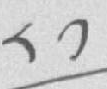༨༡
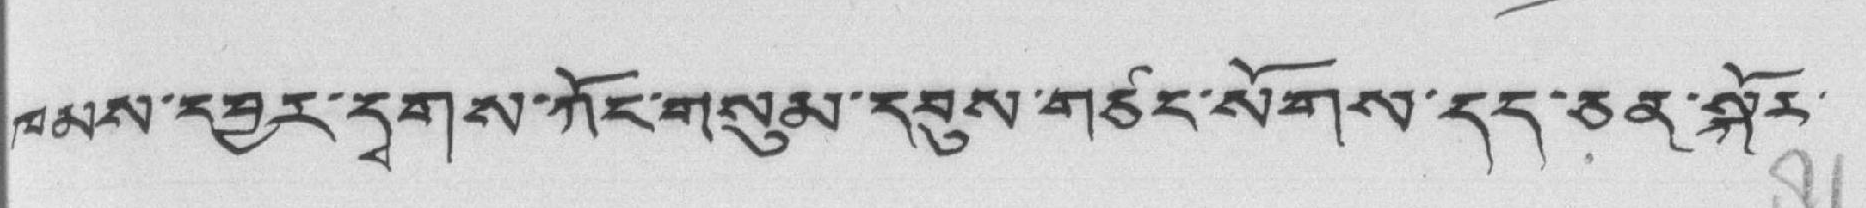ཁམས་དབྱར་དྭགས་ཀོང་གསུམ་དབུས་གཙང་སོགས་དད་ཅན་སྐོར་
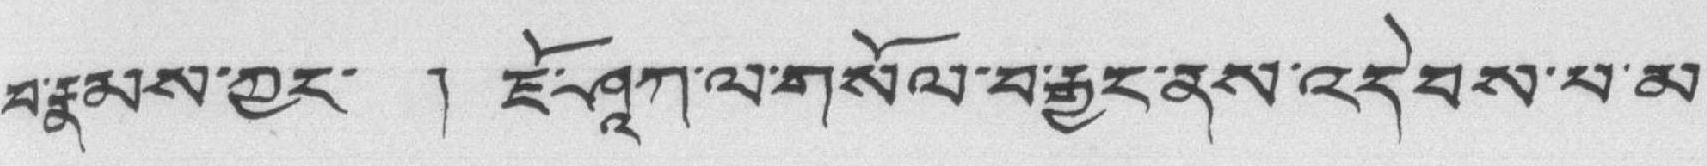བ་རྣམས་ཀྱང་ ། ཇོ་ཤཱཀ་ལ་གསོལ་བ་རྒྱང་ནས་འདེབས་པ་མ་
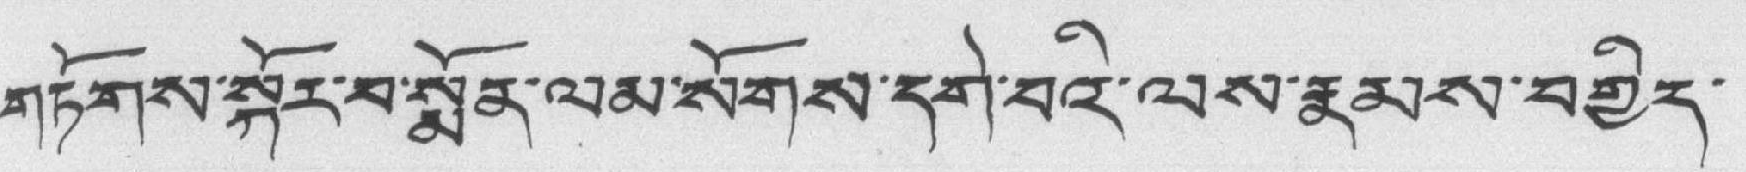གཏོགས་སྐོར་བ་སྨོན་ལམ་སོགས་དགེ་བའི་ལས་རྣམས་བགྱིད་
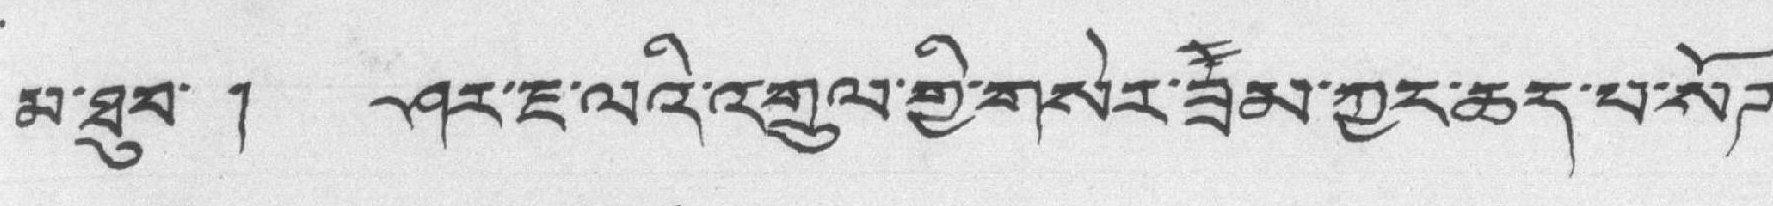མ་ཐུབ་ ། ཤར་ཇ་ལའི་འགྲུལ་གྱི་གསར་ཟེཟམ་ཀྱང་ཆད་པ་སོཊ་
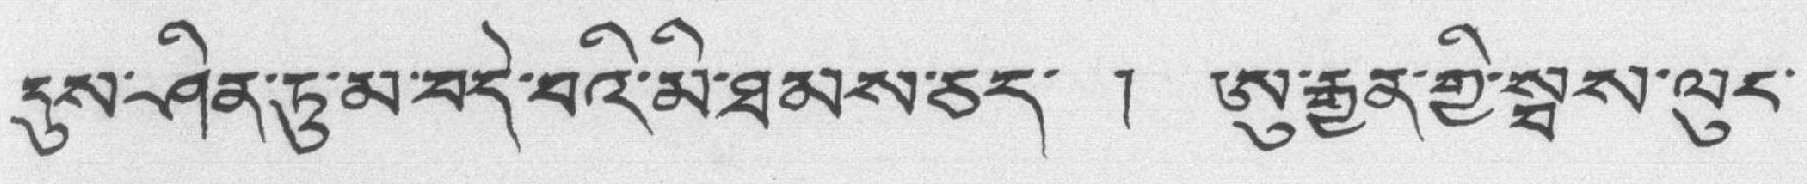དུས་ཤིན་ཏུ་མ་བདེ་བའི་མི་ཐམས་ཅེད་ ། ཨུ་རྒྱན་གྱི་སྦས་ལུང་
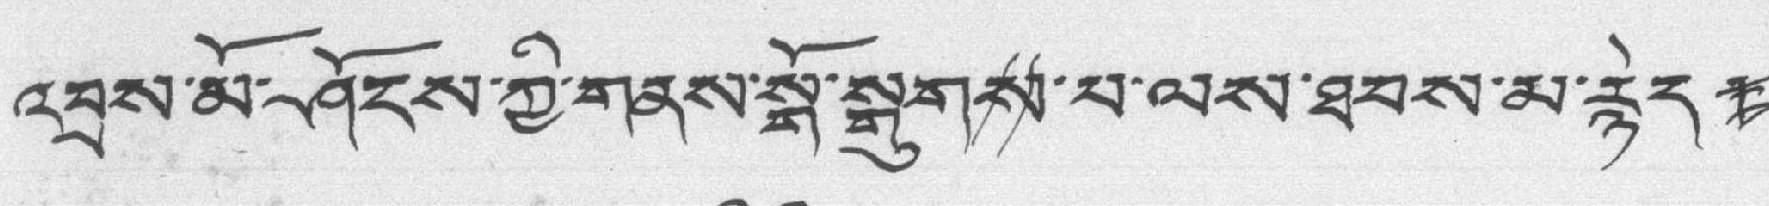འབྲས་མོ་ཤོངས་ཀྱི་གནས་སྒོ་སྒུགས་པ་ལས་ཐབས་མ་རྙེད་ །
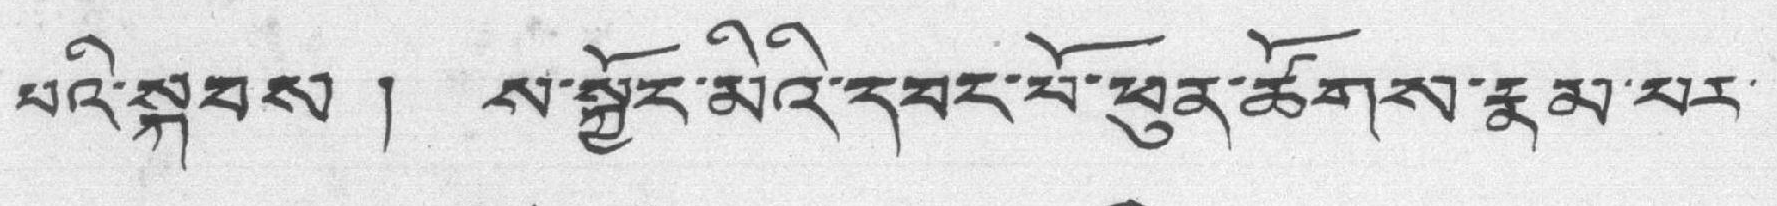པའི་སྐབས ། ས་སྐྱོང་མིའི་དབང་པོ་ཕུན་ཚོགས་རྣམ་པར་
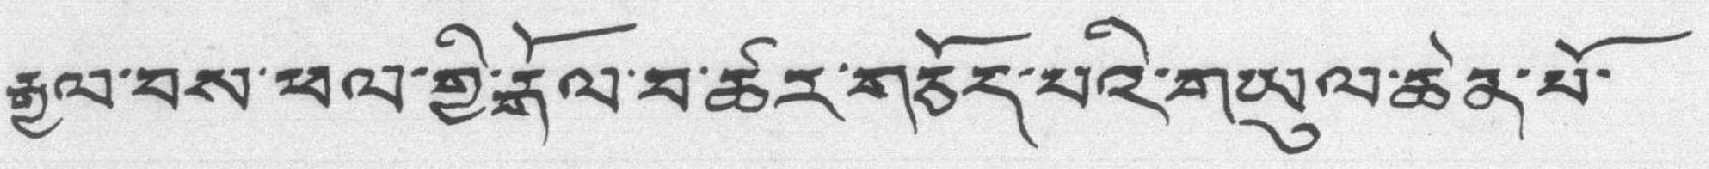རྒྱལ་བས་ཕལ་གྱི་རྒོལ་བ་ཚར་གཅོད་པའི་གཡུལ་ཆེན་པོ་
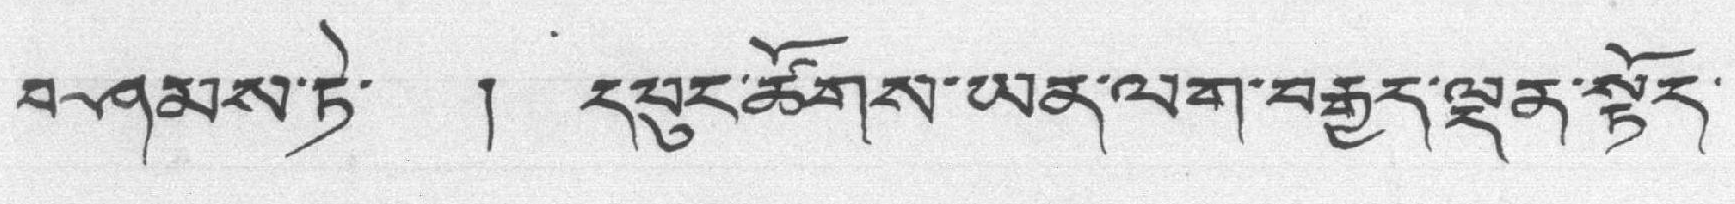བཤམས་ཏེ་ ། དཔུང་ཚོགས་ཡན་ལག་བརྒྱུད་ལྡན་སྟོད་
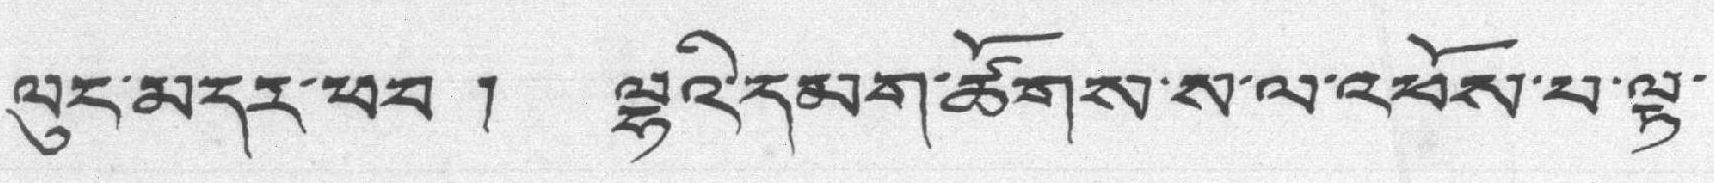ལུང་མདར་ཕབ། ལྷའི་དམག་ཚོགས་ས་ལ་འཕོས་པ་ལྟ་
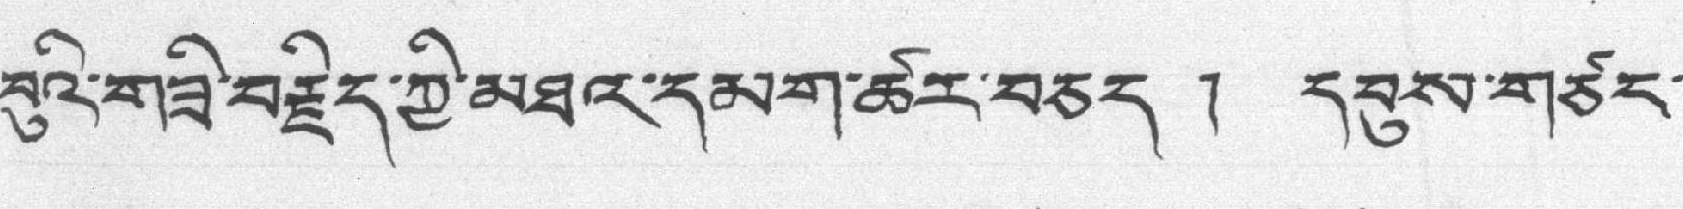བུའི་གཟི་བརྗིད་ཀྱི་མཐའ་དམག་ཚར་བཅད ། དབུས་གཙང་
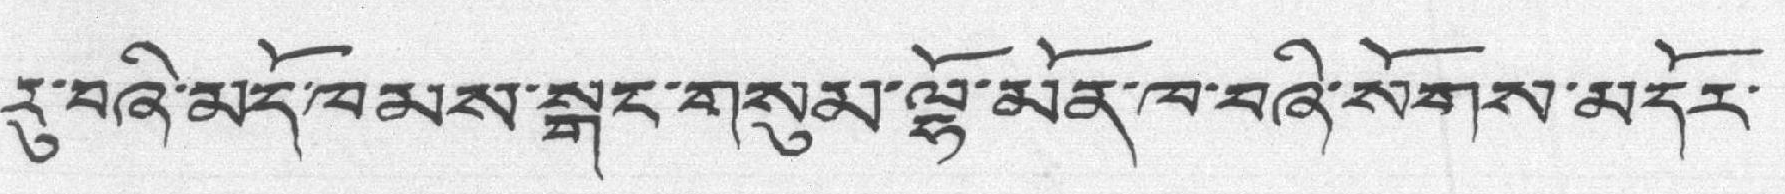རུ་བཞི་མདོ་ཁམས་སྒང་གསུམ་ལྷོ་མོན་ལ་བཞི་སོགས་མདོར་
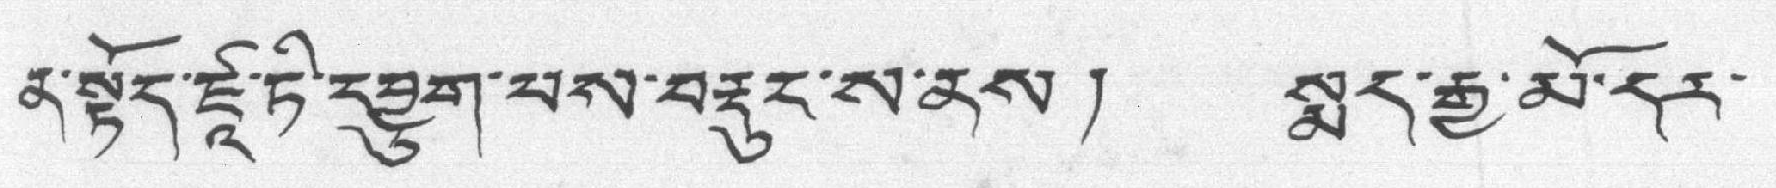ན་སྟོད་ཛཱ་ཏི་དབྱུག་པས་བརྡུང་ས་ནས། སྨད་རྒྱ་མོ་དར་
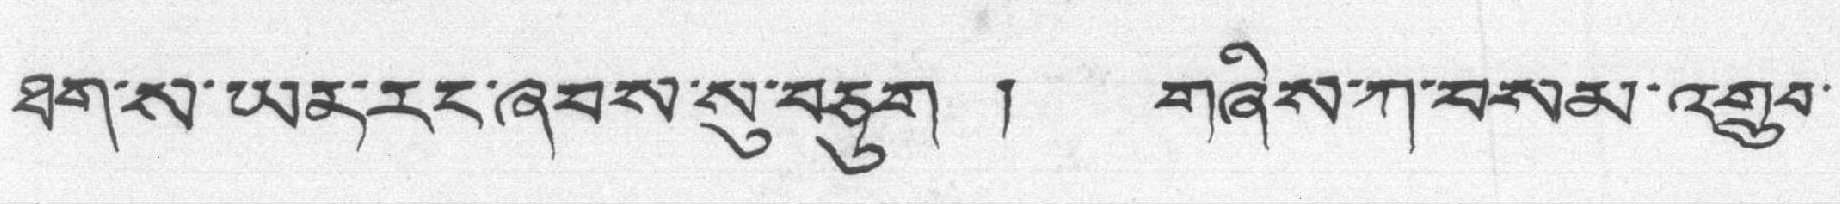ཐག་ས་ཡན་རང་ཞབས་སུ་བཅུག ། གཞིས་ཀ་བསམ་འགྲུབ་
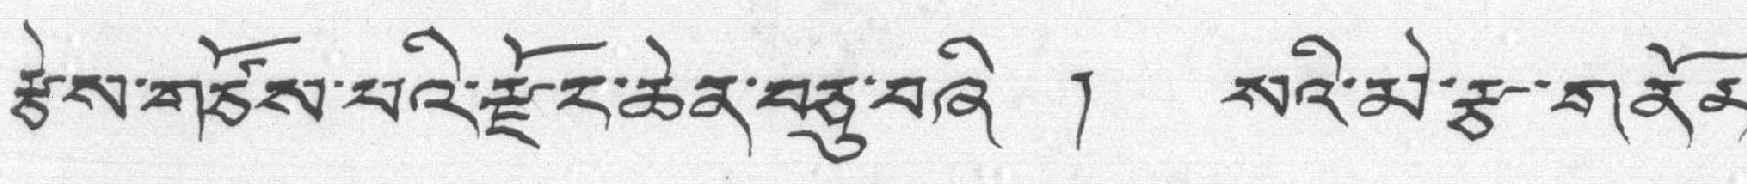རྩེས་གཙོས་པའི་རྫོང་ཆེན་བཅུ་བཞི ། སའི་མེ་རྩ་གནོན་
